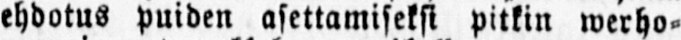ehdotus puiden asettamiseksi pitkin werho-
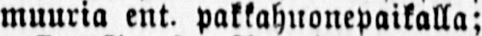muuria ent. pakkahuonepaikalla;
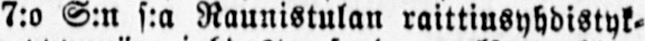7:o S:n s:a Raunistulan raittiusyhdistyk-
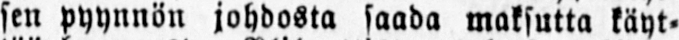sen pyynnön johdosta saada maksutta käyt-
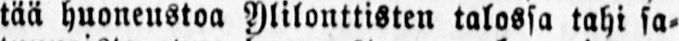tää huoneustoa Ylilonttisten talossa tahi sa-
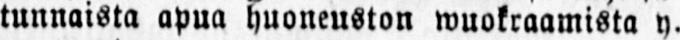tunnaista apua huoneuston wuokraamista y.
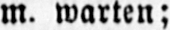m. warten;
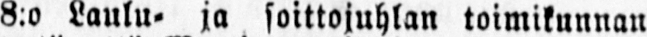8:o Laulu- ja soittojuhlan toimikunnan
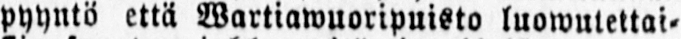pyyntö että Wartiawuoripuisto luowutettai-
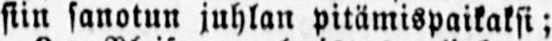siin sanotun juhlan pitämispaikaksi;
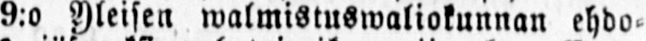9:o Yleisen walmistuswaliokunnan ehdo-
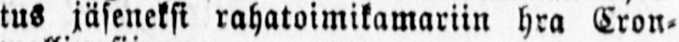tus jäseneksi rahatoimikamariin hra Cron-
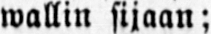wallin sijaan;
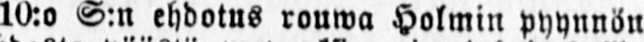10:o S:n ehdotus rouwa Holmin pyynnön
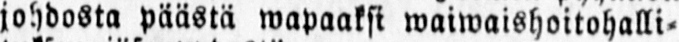johdosta päästä wapaakst waiwaishoitohalli-
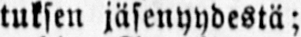tuksen jäsenyydestä;
